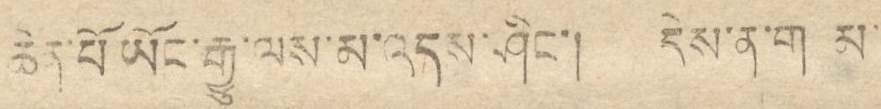ཆེན་པོ་ཡོང་རྒྱུ་ལས་མ་འདས་ཤིང་། དེས་ན་གནམ་
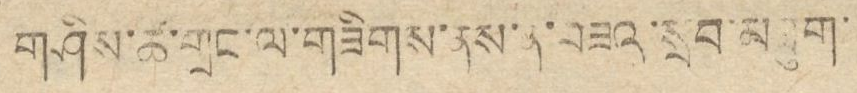གཤིས་ཚ་གྲང་ལ་གཟིགས་ནས་ན་བཟའ་སྲབ་མཐུག་
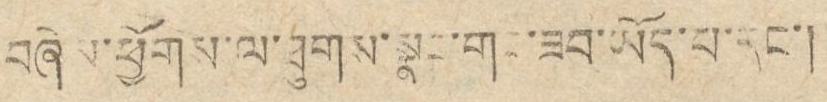བཞེས་ཕྱོགས་ལ་ཐུགས་སྣང་གང་ཟབ་ཡོད་པ་དང་།
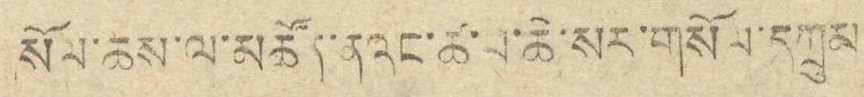སོལ་ཆས་ལ་མཚོན་ནའང་ཚ་བ་ཆེ་སར་གསོལ་དཀྲུམ་
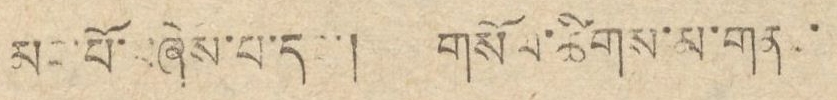མང་པོ་བཞེས་པ་དང་། གསོལ་ཚིགས་མ་གནང་
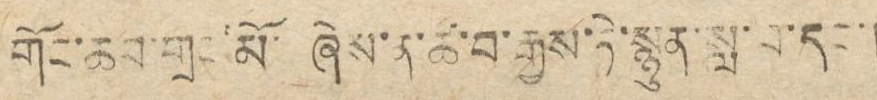གོང་ཆབ་གྲང་མོ་ཞེས་ན་ཚ་བ་རྒྱས་ཏེ་སྙུན་སླ་བ་དང་།
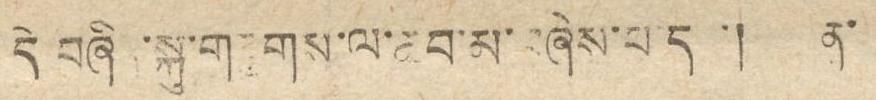དེ་བཞིན་སྐུ་གཟུགས་ལ་ཆབ་མ་བཞེས་པ་དང་། ན་
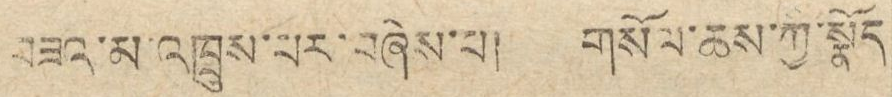བཟའ་མ་འཁྲུས་པར་བཞེས་པ། གསོལ་ཆས་ཀྱི་སྣོད་
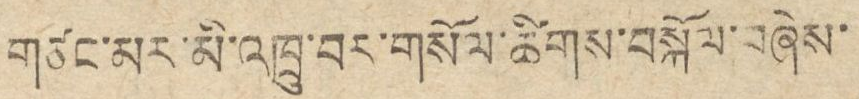གཙང་མར་མི་འཁྲུ་བར་གསོལ་ཚིགས་བསྐོལ་བཞེས་
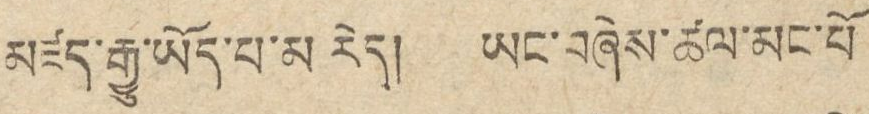མཛད་རྒྱུ་ཡོད་པ་མ་རེད། ཡང་བཞེས་ཚལ་མང་པོ་
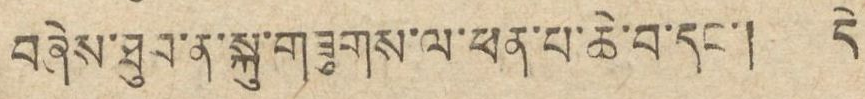བཞེས་ཐུབ་ན་སྐུ་གཟུགས་ལ་ཕན་པ་ཆེ་བ་དང་། དེ་
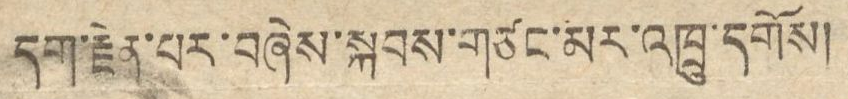དག་རྗེན་པར་བཞེས་སྐབས་གཙང་མར་འཁྲུ་དགོས།
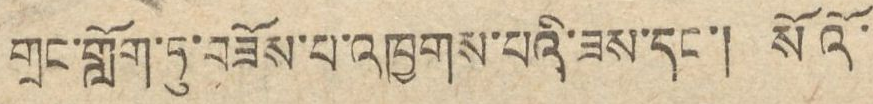གྲང་གློག་ཏུ་བཟོས་པ་འཁྱགས་པའི་ཟས་དང་། སོའོ་
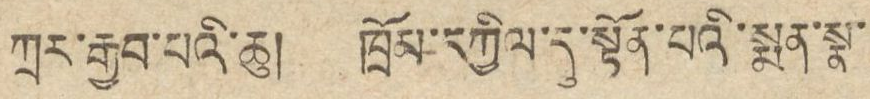ཀྲར་རྒྱབ་པའི་ཆུ། ཁྲོམ་དཀྱིལ་དུ་སྟོན་པའི་སྨན་སྣ་
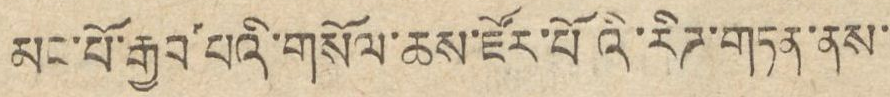མང་པོ་རྒྱབ་པའི་གསོལ་ཆས་ཛོར་པོའི་རིཌ་གཏན་ནས་
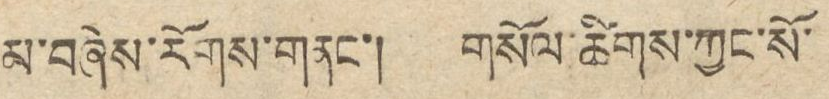མ་བཞེས་རོགས་གནང་། གསོལ་ཚིགས་ཀྱང་སོ་
